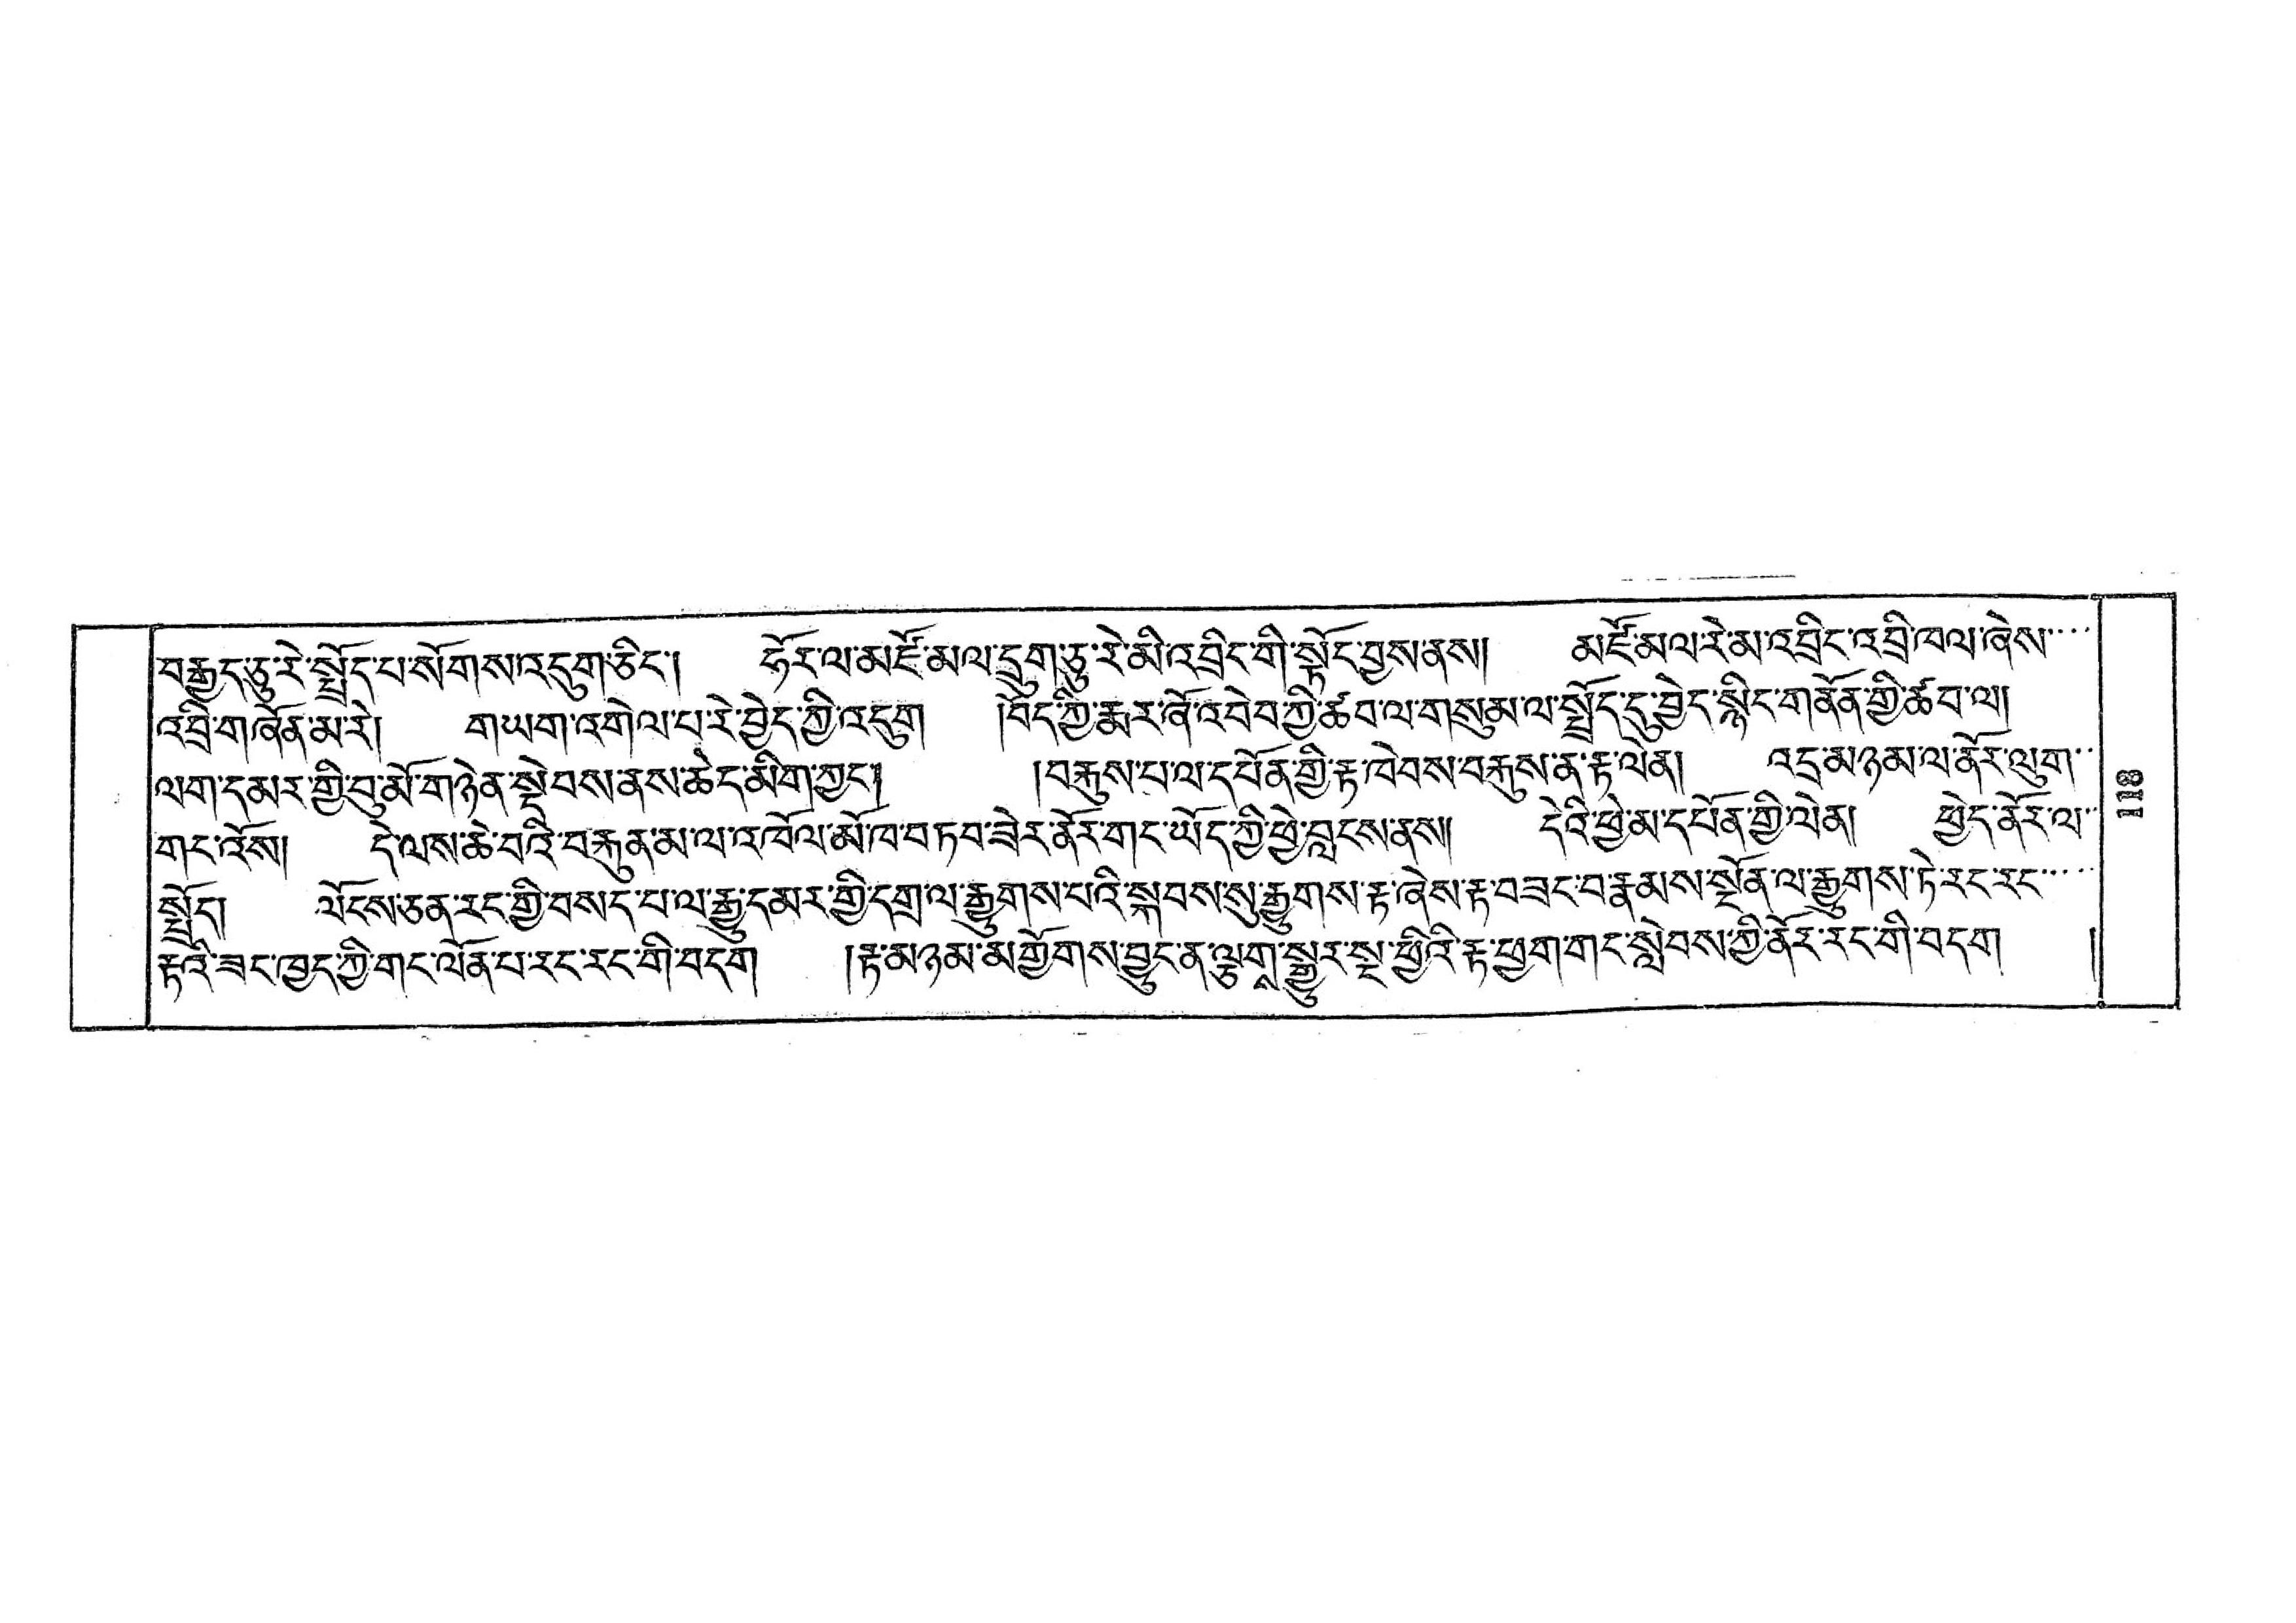བརྒྱད་ཅུ་རེ་སྤྲོད་པ་སོགས་འདུག་ཅིང་། ཧོར་ལ་མཛོ་མལ་དྲུག་ཅུ་རེ་མི་འབྲིང་གི་སྟོང་བྱས་ནས། མཛོ་མལ་རེ་མ་འབྲིང་ཁལ་ཞེས་་་་
འབྲི་གཞོན་མ་རེ། གཡག་འགེལ་པ་རེ་བྱེད་ཀྱི་འདུག །བོད་ཀྱི་རྨར་ཞོ་འབེབ་ཀྱི་ཚབ་ལ་གསུམ་ལ་སྤྲོད་དུ་བྱེད་སྙིང་གནོན་གྱི་ཚབ་ལ།
ལག་དམར་གྱི་བུ་མོ་གཉེན་སྡེབས་ནས་ཆེད་མིག་ཀྱང་། །བརྐུས་པ་ལ་དཔོན་གྱི་རྟ་ཁེབས་བརྐུས་ན་རྟ་ལེན། འདྲ་མཉམ་ལ་ནོར་ལུག་་
གང་འོས། དེ་ལས་ཆེ་བའི་བརྐུན་མ་ལ་འཁོལ་མོ་ཁ་བཏབ་ཟེར་ནོར་གང་ཡོད་ཀྱི་ཕྱེ་བླངས་ནས། དེའི་ཕྱེ་མ་དཔོན་གྱི་ལེན། ཕྱེད་ནོར་ལ་
སྤྲོད། ལོངས་ཅན་རང་གྱི་བསད་པ་ལ་རྒྱུ་དམར་གྱི་དགྲ་ལ་རྒྱུགས་པའི་སྐབས་སུ་རྒྱུགས་རྟ་ཞེས་རྟ་བཟད་བ་རྣམས་སྔོན་ལ་རྒྱུགས་ཏེ་རང་རང་་་་་
རྟའི་ཟང་ཁྱད་ཀྱི་གང་ལོན་པ་རང་རང་གི་བདག །རྟ་མཉམ་མགྱོགས་བྱུང་ན་ལྕགས་སྒྱུར་སྔ་ཕྱིའི་རྟ་ཕྱག་གང་སླེབས་ཀྱི་ནོར་རང་གི་བདག །
